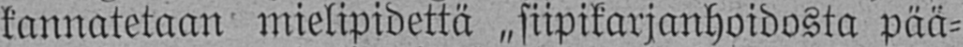kannatetaan mielipidettä „siipikarjanhoidosta pää-
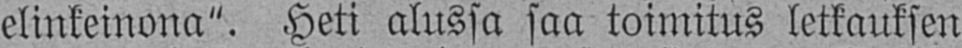elinkeinona". Heti alussa saa toimitus letkauksen
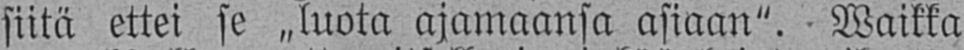siitä ettei se „luota ajamaansa asiaan". - Waikka
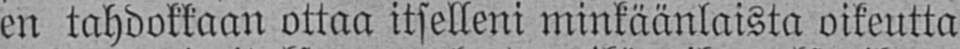en tahdokkaan ottaa itselleni minkäänlaista oikeutta
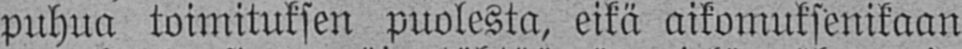puhua toimituksen puolesta, eikä aikomuksenikaan
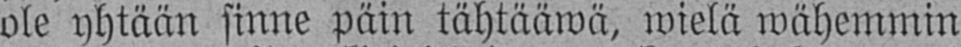ole yhtään sinne päin tähtääwä, wielä wähemmin
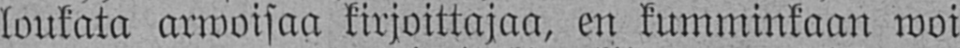loukata arwoisaa kirjoittajaa, en kumminkaan woi
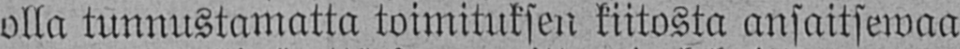olla tunnustamatta toimituksen kiitosta ansaitsewaa
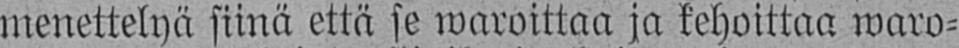menettelyä siinä että se waroittaa ja kehoittaa waro-
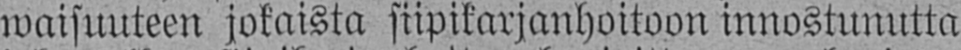waisuuteen jokaista siipikarjanhoitoon innostunutta
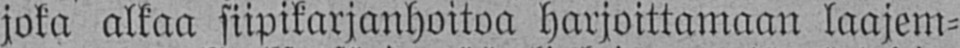joka alkaa siipikarjanhoitoa harjoittamaan laajem-
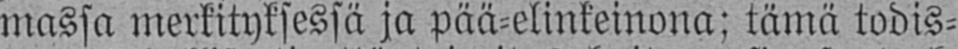massa merkityksessä ja pää-elinkeinona: tämä todis-
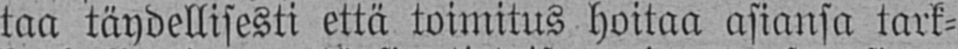taa täydellisesti että toimitus hoitaa asiansa tark-
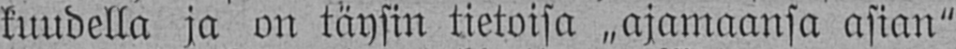kuudella ja on täysin tietoisa „ajamaansa asian"
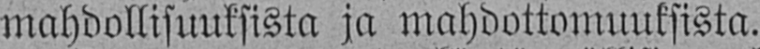mahdollisuuksista ja mahdottomuuksista.
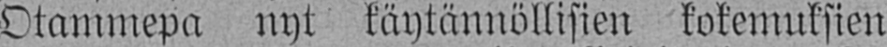Otammepa nyt käytännöllisien kokemuksien
